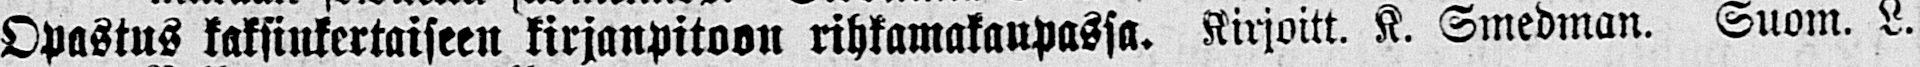Opastus kaksinkertaiseen kirjanpitoon rihkamakaupassa. Kirjott. K. Smedman. Suom. L.
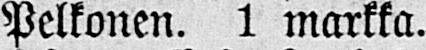Pelkonen. 1 markka.
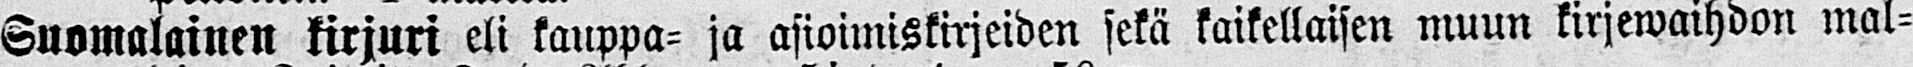Suomalainen kirjuri eli kauppa- ja asioimiskirjeiden sekä kaikellaisen muun kirjewaihdon mal-
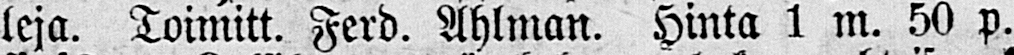leja. Toimitt. Ferd. Ahlman. Hinta 1 m. 50 p.
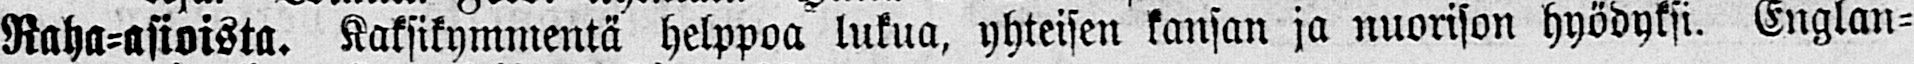Raha-asioista. Kaksikymmentä helppoa lukua, yhteisen kansan ja nuorison hyödyksi. Englan-
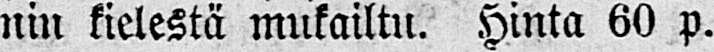nin kielestä mukailtu. Hinta 60 p.
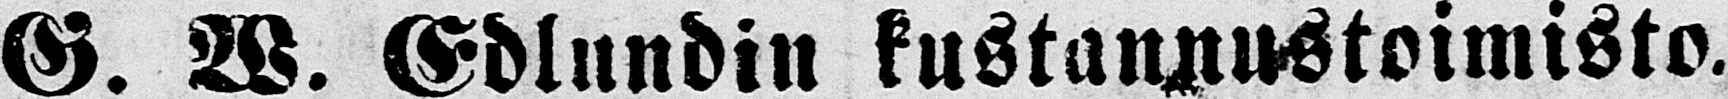G. W. Edlundin kustannustoimisto.
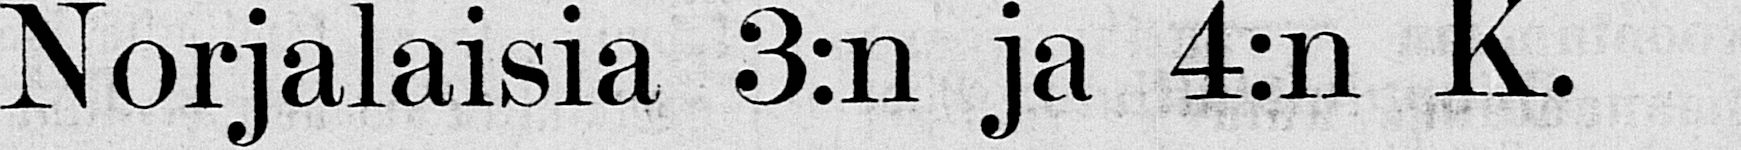Norjalaisia 3:n ja 4:n K.
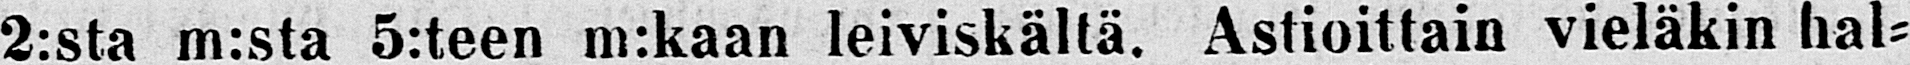2:sta m:sta 5:teen m:kaan leiviskältä, Astioitain vieläkin hal-
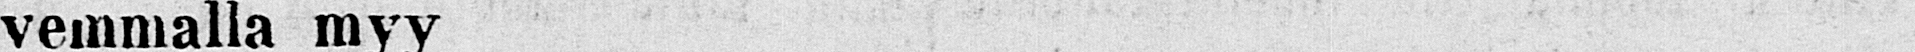vemmalla myy
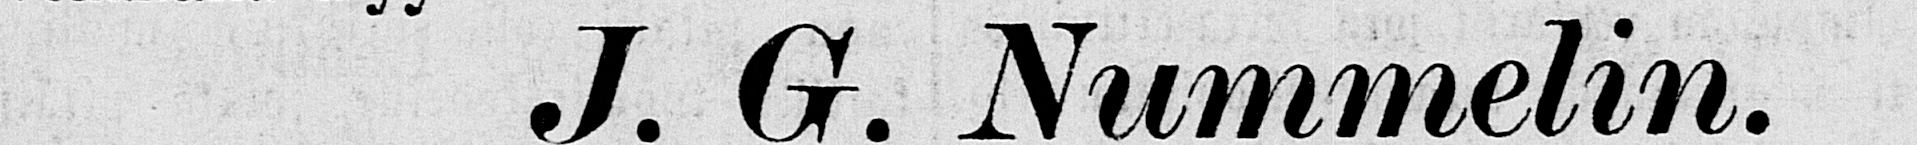J. G. Nummelin.
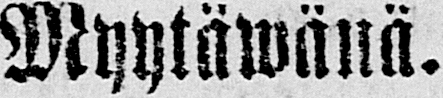Myytäwänä.
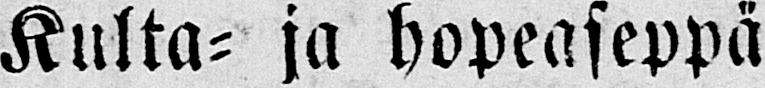Kulta- ja hopeaseppä
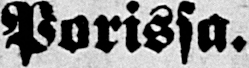Porissa.
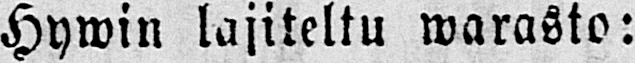Hywin lajiteltu warasto:
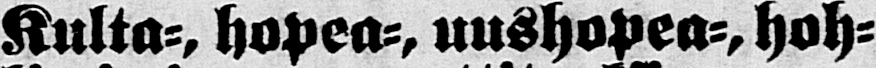Kulta-, hopea-, uushopea-,hoh-
